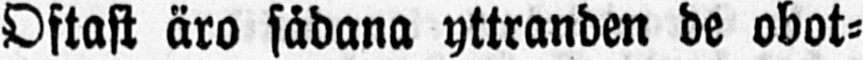Oftast äro sådana yttranden de obot-
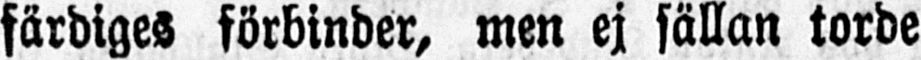färdiges förbinder, men ej sällan torde
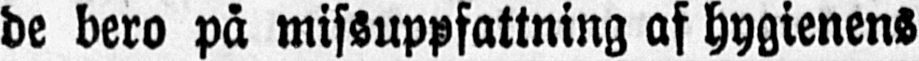de bero på missuppfattning af hygienens
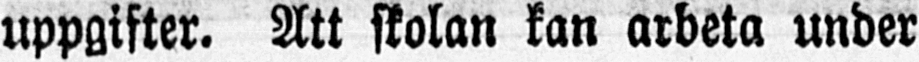uppgifter. Att skolan kan arbeta under
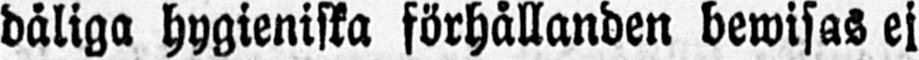dåliga hygieniska förhållanden bewisas ej
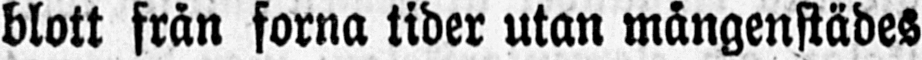blott från forna tider utan mångenstädes
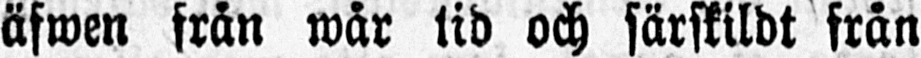äfwen från wår tid och särskildt från
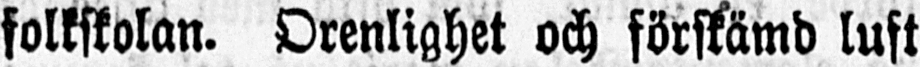folkskolan. Orenlighet och förskämd luft
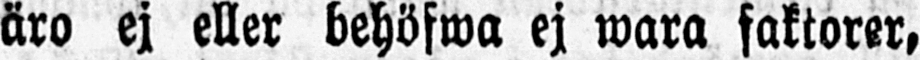äro ej eller behöfwa ej wara faktorer,
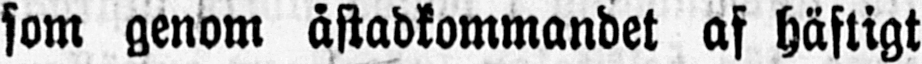som genom åstadkommandet af häftigt
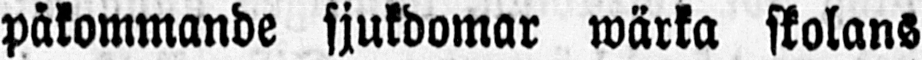påkommande sjukdomar wärka skolans
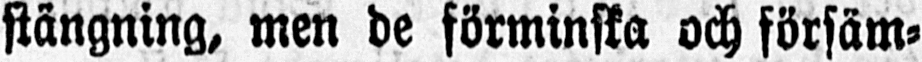stängning, men de förminska och försäm-
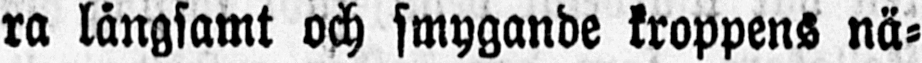ra långsamt och smygande kroppens nä-
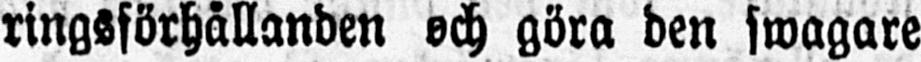ringsförhållanden och göra den swagare
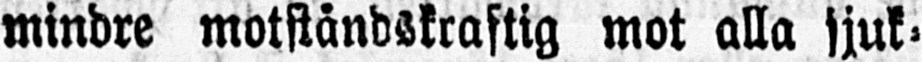mindre motståndskraftig mot alla sjuk-
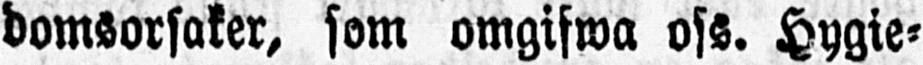domsorsaker, som omgifwa osz. Hygie-
